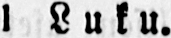1 Luku.
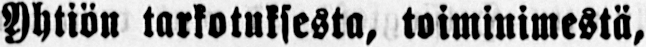Yhtiön tarkotuksesta, toiminimestä,
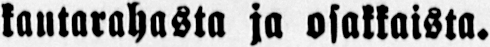kantarahasta ja osakkaista.
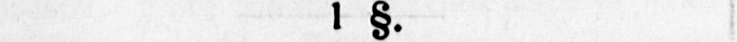1 § .
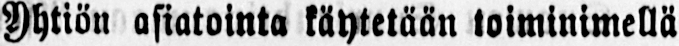Yhtiön asiatointa käytetään toiminimellä
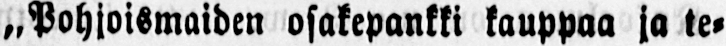„Pohjoismaiden osakepankki kauppaa ja te-
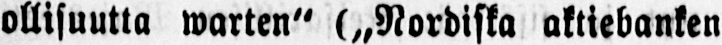ollisuutta warten" („Nordiska aktiebanken
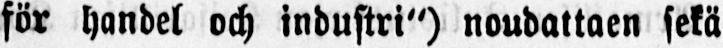för handel och industri") noudattaen sekä
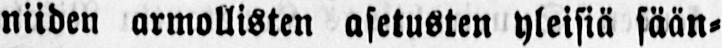niiden armollisten asetusten yleisiä sään-
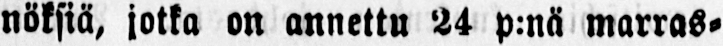nöksiä, jotka on annettu 24 p:nä marras-
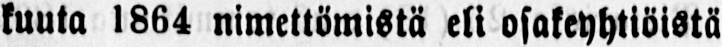kuuta 1864 nimettömistä eli osakeyhtiöistä
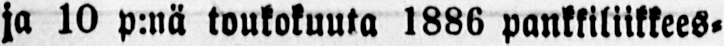ja 10 p:nä toukokuuta 1886 pankkiliikkees-
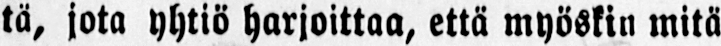tä, jota yhtiö harjoittaa, että myöskin mitä
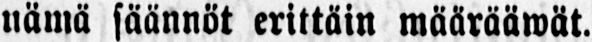nämä säännöt erittäin määrääwät.
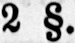2 §.
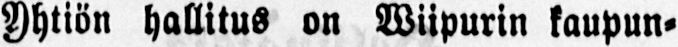Yhtiön hallitus on Wiipurin kaupun-
